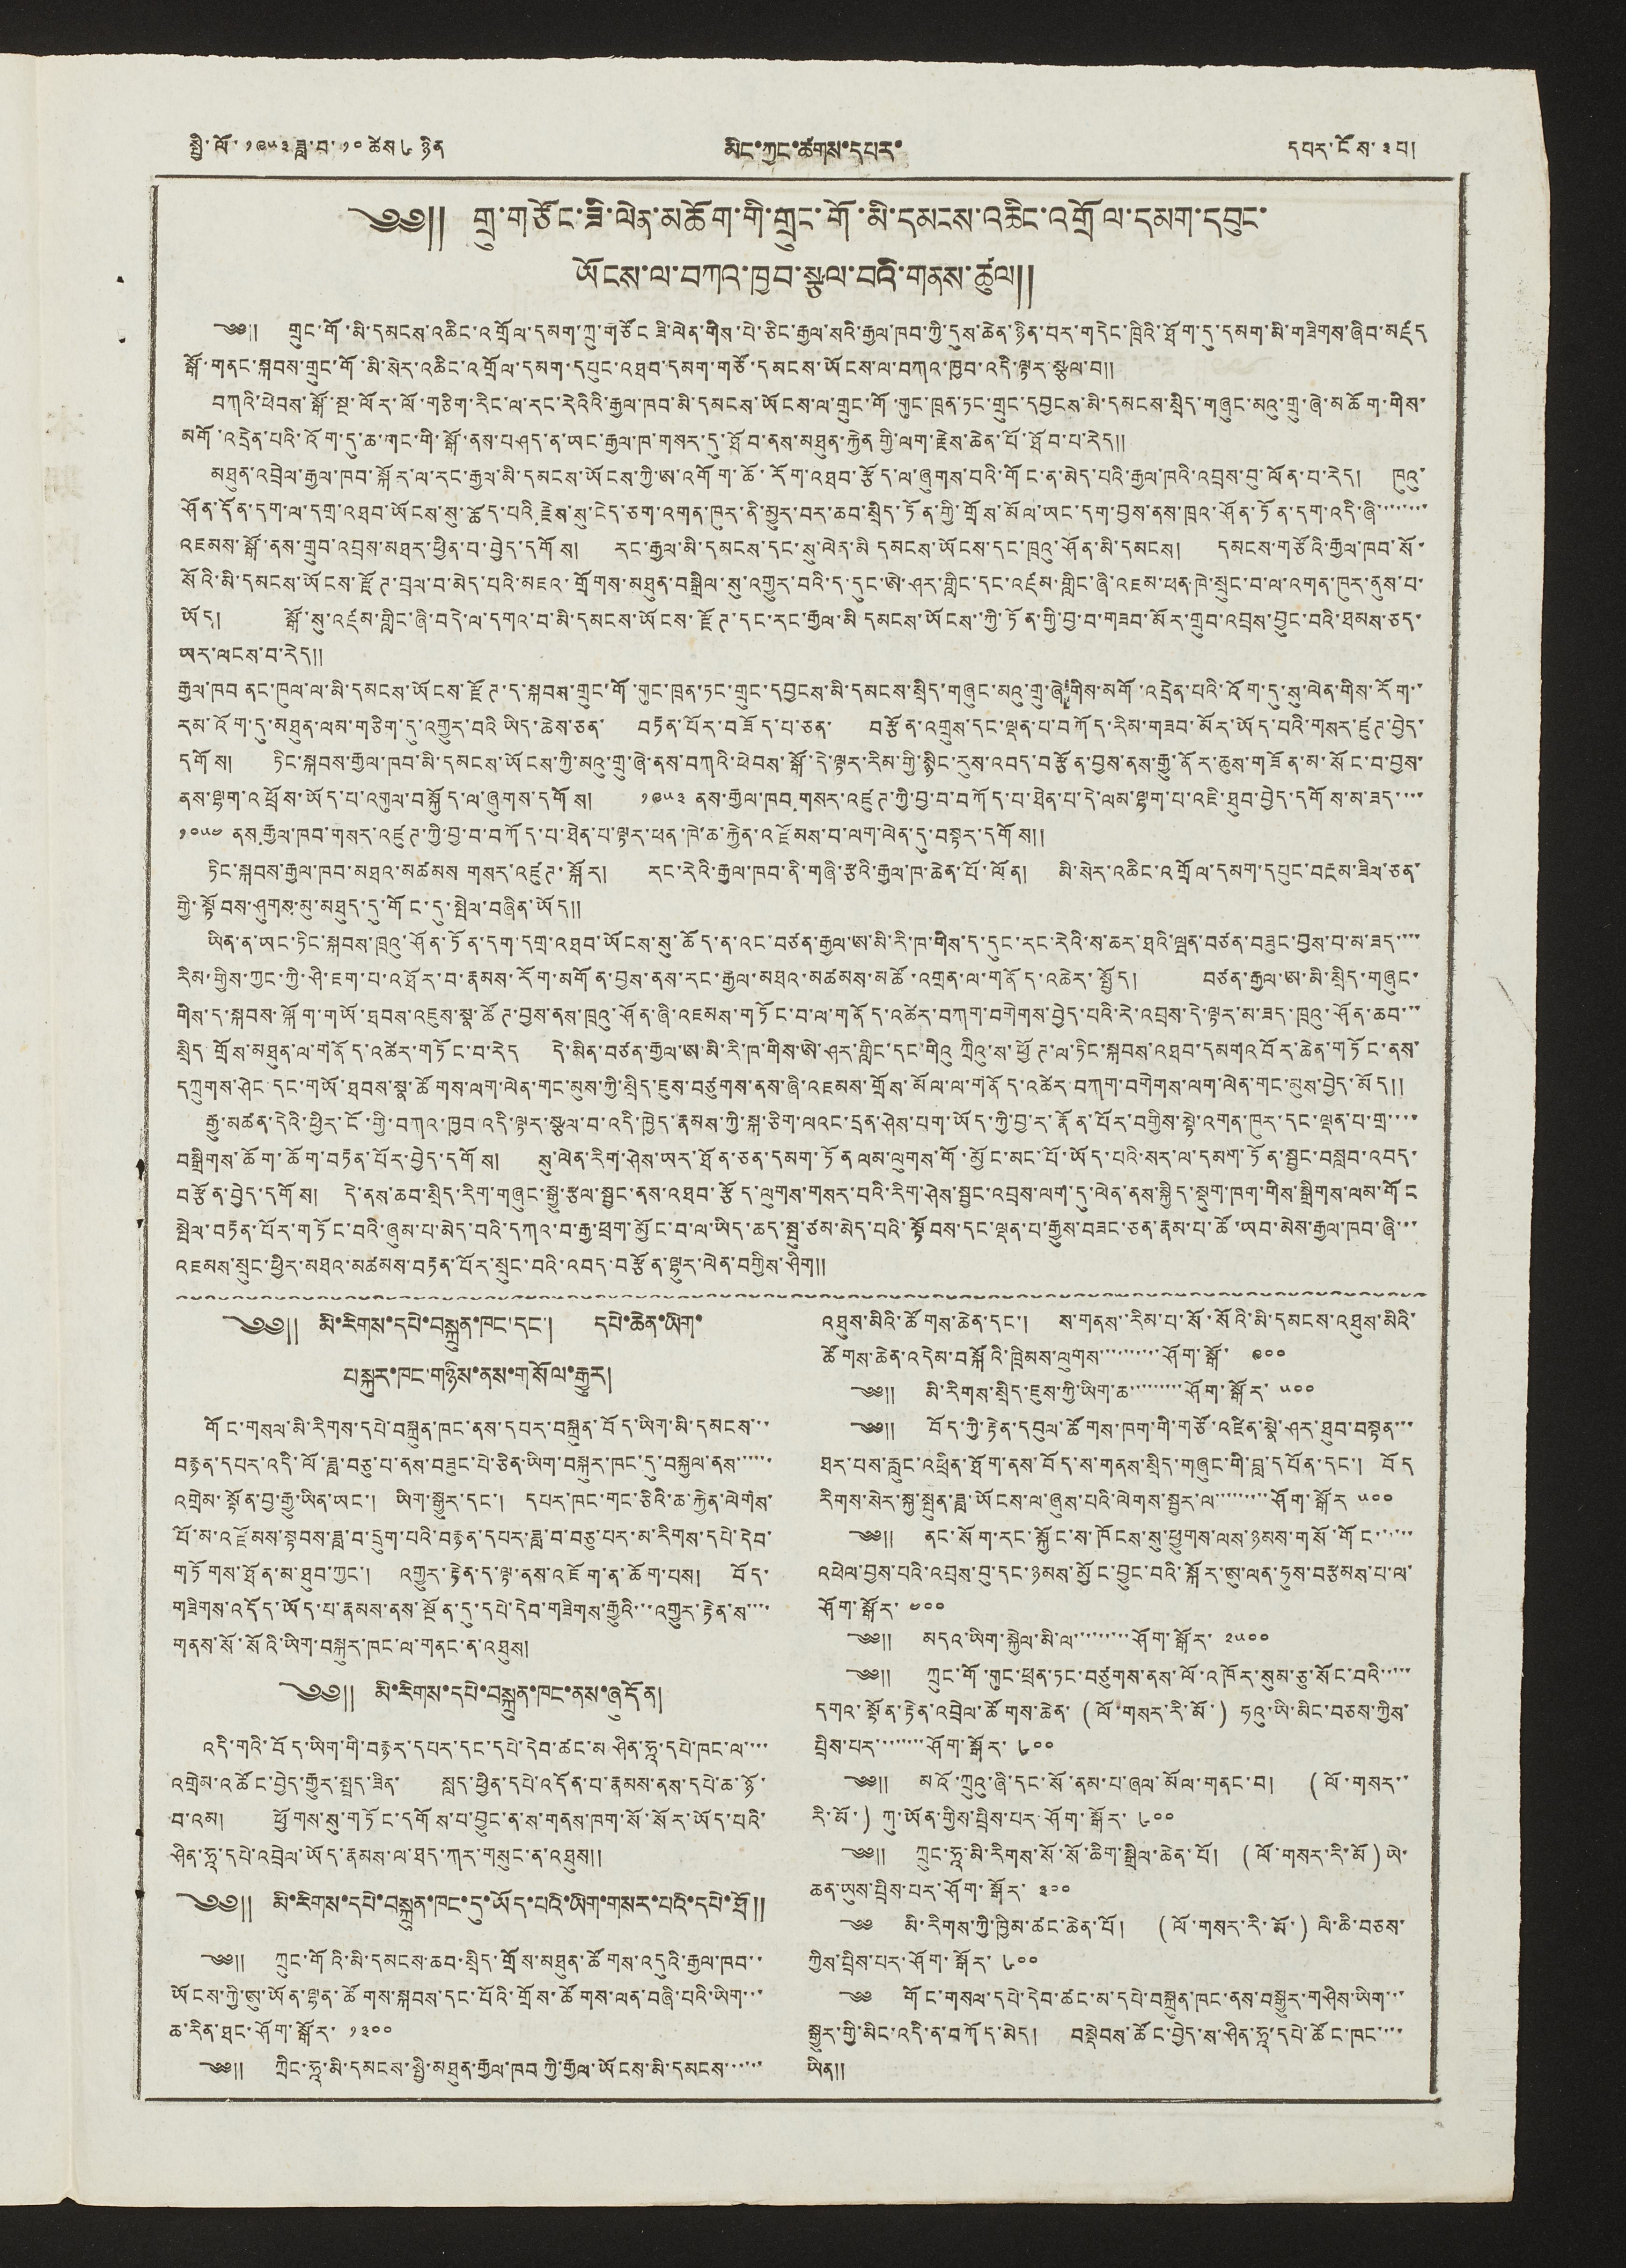སྤྱི་ལོ་ ༡༩༥༣ ཟླ་བ་ ༡༠ ཚེས ༦ ཉིན མིང་ཁྱང་ཚགས་དཔར་ དཔར་ངོས་ ༣ པ།
༄༅༎ གྲུ་གཙོང་ཟི་ལེན་མཆོག་གི་གྲུང་གོ་མི་དམངས་འཆིང་འགྲོལ་དམག་དབུང་
ཡོངས་ལ་བཀའ་ཁྱབ་སྩལ་བའི་གནས་ཚུལ༎
༄༅༎ གྲུང་གོ་མི་དམངས་ཆིང་འགྲོལ་དམག་ཀྲུ་གཙོང ཟི་ལེན་གིས་པེ་ཅིང་རྒྱལ་སའི་རྒྱལ་ཁབ་ཀྱི་དུས་ཆེན་ཉིན་པར་གདེང་ཁྲིའི་ཐོག་དུ་དམག་མི་གཟིགས་ཞིབ་མཛད
སྒོ་གནང་སྐབས་གྲུང་གོ་མི་སེར་འཆིང་འགྲོལ་དམག་དཔུང་འཐབ་དམག་གཙོ་དམངས་ཡོངས་ལ་བཀའ་ཁྱབ་འདི་ལྟར་སྩལ་བ༎
བཀའི་ཕེབས་སྒོ་སྔ་ལོར་ལོ་གཅིག་རིང་ལ་རང་རེའིའི་རྒྱལ་ཁབ་མི་དམངས་ཡོངས་ལ་གྲུང་གོ་གུང་ཁྲན་ཏང་གྲུང་དབྱངས་མི་དམངས་སྲིད་གཞུང་མའུ་གྲུ་ཞེ་མཆོག་གིས་
མགོ་འདྲེན་པའི་འོག་དུ་ཆ་གང་གི་སྒོ་ནས་བཤད་ན་ཡང་རྒྱལ་ཁ་གསར་དུ་ཐོབ་ནས་མཐུན་རྐྱེན གྱི་ལག་རྗེས་ཆེན་པོ་ཐོབ་པ་རེད༎
མཐུན་འབྲེལ་རྒྱལ་ཁབ་སྐོར་ལ་རང་རྒྱལ་མི་དམངས་ཡོངས་ཀྱི་ཨ་འགོག་ཆོ་རོག་འཐབ་རྩོད་ལ་ཞུགས་བའི་གོང་ན་མེད་པའི་རྒྱལ་ཁའི་འབྲས་བུ་ལོན་པ་རེད། ཁུའུ་
ཤོན་དོན་དག་ལ་དགྲ་འཐབ་ཡོངས་སུ་ཆོད་པའི རྗེས་སུ་ངེད་ཅག་འགན་ཁུར་ནི་མྱུར་བར་ཆབ་སྲིད་ཏོན་གྱི་གྲོས་མོལ་ཡང་དག་བྱས་ནས་ཁྲའ་ཤོན་ཏོན་དག་འདི་ཞི་་་་་་་་
འཇམས་སྒོ་ནས་གྲུབ་འབྲས་མཐར་ཕྱིན་པ་བྱེད་དགོས། རང་རྒྱལ་མི་དམངས་དང་སུ་ལེན་མི དམངས་ཡོངས་དང་ཁྲའུ་ཤོན་མི་དམངས། དམངས་གཙོའི་རྒྱལ་ཁབ་སོ་
སོའི་མི་དམངས་ཡོངས་རྫོཊ་བྲལ་བ་མེད་པའི་མཇའ་གྲོགས་མཐུན་བསྒྲིལ་སུ་འགྱུར་བའི་ད་དུང་ཨེ་ཤར་གླིང་དང་འཛམ་གླིང་ཞི་འཇམ་ཕན་ཁེ་སྲུང་བ་ལ་འགན་ཁུར་ནུས་པ་
ཡོད། སྒོ་སུ་འཛམ་གླིང་ཞི་བདེ་ལ་དགའ་བ་མི་དམངས་ཡོངས་རྫོཊ་དང་རང་རྒྱལ་མི དམངས་ཡོངས་་ཀྱི་ཏོན་གྱི་བྱ་བ་གཟབ་མོར་གྲུབ་འབྲས་བྱུང་བའི་ཐམས་ཅད་
ཡར་ལངས་བ་རེད༎
རྒྱལ་ཁབ ནང་ཁུལ་ལ་མི་དམངས་ཡོངས་རྫོཊ་ད་སྐབས་གྲུང་གོ་གུང་ཁྲན་ཏང་གྲུང་དབྱངས་མི་དམངས་སྲིད་གཞུང་མའུ་གྲུ་ཞེ་གིས་མགོ་འདྲེན་པའི་འོག་དུ་སུ་ལེན་གིས་རོག་་
རམ་འོག་དུ་མཐུན་ལམ་གཅིག་དུ་འགྱུར་བའི ཡིད་ཆེས་ཅན་ བརྟན་པོར་བཟོད་པ་ཅན་ བརྩོན་འགྲུས་དང་ལྡན་པ་བཀོད་རིམ་གཟབ་མོར་ཡོད་པའི་གསར་ཛུཊ་བྱེད་
དགོས། ཏིང་སྐབས་རྒྱལ་ཁབ་མི་དམངས་ཡོངས་ཀྱི་མའུ་གྲུ་ཞེ་ནས་བཀའི་ཕེབས་སྒོ་དེ་ལྟར་རིམ་གྱི་སྙིང་རུས་འབད་བརྩོན་བྱས་ནས་རྒྱུ་ནོར་ཆུས་གཟོན་མ་སོང་བ་བྱས་
ནས་ལྷག་འཕྲོས་ཡོད་པ་འགུལ་བསྐྱོད་ལ་ཞུགས་དགོས། ༡༩༥༣ ནས་རྒྱལ་ཁབ་གསར་འཛུཊ་ཀྱི་བྱ་བ་བཀོད་པ་ཐེན་པ་དེ་ལམ་ལྷག་པ་འཇི་ཐུབ་བྱེད་དགོས་མ་ཟད་་་་
༡༩༥༤ ནས རྒྱལ་ཁབ་གསར་འཛུཊ་ཀྱི་བྱ་བ་བཀོད་པ་ཐེན་པ་ལྟར་ཕན་ཁེ་ཆ་རྐྱེན་འཛོམས་བ་ལག་ལེན་དུ་བསྟར་དགོས༎
ཏིང་སྐབས་རྒྱལ་ཁབ་མཐའ་མཚམས གསར་འཛུཊ་སྐོར། རང་རེའི་རྒྱལ་ཁབ་ནི་གཞི་རྩའི་རྒྱལ་ཁ་ཆེན་པོ་ལོན། མི་སེར་འཆིང་འགྲོལ་དམག་དཔུང་བརྔམ་ཟིལ་ཅན་
གྱི་སྟོབས་ཤུགས་མུ་མཐུད་དུ་གོང་དུ་སྤེལ་བཞིན་ཡོད༎
ཡིན་ན་ཡང་ཏིང་སྐབས་ཁྲའུ་ཤོན་ཏོན་དག་དགྲ་འཐབ་ཡོངས་སུ་ཆོད་ན་འང་བཙན་རྒྱལ་ཨ་མི་རི་ཁ་གིས་ད་དུང་རང་རེའི་ས་ཆར་ཐའི་ཝན་བཙན་བཟུང་བྱས་བ་མ་ཟད་་་་
རིམ་གྱིས་ཀྱང་ཀྱི་ཤི་ཇག་པ་འཐོར་བ་རྣམས་རོག་མགོན་བྱས་ནས་རང་རྒྱལ་མཐའ་མཚམས་མཚོ་འགྲན་ལ་གནོད་འཆེར་སྤྱོད། བཙན་རྒྱལ་ཨ་མི་སྲིད་གཞུང་
གིས་ད་སྐབས་ལྐོག་གཡོ་ཐབས་འཇུས་སྣ་ཚོཊ་བྱས་ནས་ཁྲའུ་ཤོན་ཞི་འཇམས་གཏོང་བ་ལ་གནོད་འཚེར་བཀག་བགེགས་བྱེད་པའི་རེ་འབྲས་དེ་ལྟར་མ་ཟད་ཁྲའུ་ཤོན་ཆབ་་་
སྲིད གྲོས་མཐུན་ལ་གནོད་འཚེར་གཏོང་བ་རེད དེ་མིན་བཙན་རྒྱལ་ཨ་མི་རི་ཁ་གིས་ཨེ་ཤར་གླིང་དང་གིའུ ཀྲིའུ་ས་ཕྱོཊ་ལ་ཏིང་སྐབས་འཐབ་དམགའ བོར་ཆེན་གཏོང་ནས་
དཀྲུགས་ཤེང་དང་གཡོ་ཐབས་སྣ་ཚོགས་ལག་ལེན་གང་མུས་ཀྱི་སྲིད་ཇུས་བཙུགས་ནས་ཞི་འཇམས་གྲོས་མོལ་ལ་གནོད་འཚེར་བཀག་བགེགས་ལག་ལེན་གང་མུས་བྱེད་མོད༎
རྒྱུ་མཚན་དེའི་ཕྱི་ངོ་གྱི་བཀའ་ཁྱབ་འདི་ལྟར་སྩལ་བ་འདི་ཁྱེད་རྣམས་ཀྱི་སྐ་ཅིག་ལའང་དྲན་ཤེས་པག་ཡོད་ཀྱི་བྱ་ར་རྣོན་པོར་བགྱིས་སྟེ་འགན་ཁུར་དང་ལྡན་པ་གྲ་་་་
བསྒྲིགས་ཆོག་ཆོག་བརྟན་པོར་བྱེད་དགོས། སུ་ལེན་རིག་ཤེས་ཡར་ཐོན་ཅན་དམག་ཏོན ལམ་ལུགས་གོ་མྱོང་མང་པོ་ཡོད་པའི་སར་ལ་དམག་ཏོན་སྦྱང་བསླབ་འབད་
བརྩོན་བྱེད་དགོས། དེ་ནས་ཆབ་སྲིད་རིག་གཞུང་སྒྱུ་རྩལ་སྦྱང་ནས་འཐབ་རྩོད་ལུགས་གསར་པའི་རིག་ཤེས་སྦྱང་འབྲས་ལག་དུ་ལེན་ནས་སྐྱིད་སྡུག་ཁག་གིས་སྒྲིགས་ལམ་གོང
སྤེལ་བརྟན་པོར་གཏོང་བའི་ཞུམ་པ་མེད་པའི་དཀའ་བ་རྒྱ་ཕྲག་མྱོང་བ་ལ་ཡིད་ཆད་སྤུ་ཙམ་མེད་པའི་སྟོབས་དང་ལྡན་པ་རྒྱུས་བཟང་ཅན་རྣམ་པ་ཚོ་ཡབ་མེས་རྒྱལ་ཁབ་ཞི་་་
འཇམས་སྲུང་ཕྱིར་མཐའ་མཚམས་བརྟན་པོར་སྲུང་བའི་འབད་བརྩོན་ལྷུར་ལེན་བགྱིས་ཤིག༎
༄༅༎ མི་རིགས་དཔེ་བསྐྲུན་ཁང་དང་། དཔེ་ཆེན་ཡིག་
བསྐུར་ཁང་གཉིས་ནས་གསོལ་རྒྱུར།
གོང་གསལ་མི་རིགས་དཔེ་བསྐྲུན་ཁང་ནས་དཔར་བསྐྲུན་བོད་ཡིག་མི་དམངས་་་
བརྙན་དཔར་འདི་ལོ་ཟླ་བཅུ་པ་ནས་བཟུང་པེ་ཅིན་ཡིག་བསྐུར་ཁང་དུ་བསྐྱལ་ནས་་་་་་
འགྲེམ་སྟོན་བྱ་རྒྱུ་ཡིན་ཡང་། ཡིག་སྒྱུར་དང་། དཔར་ཁང་གང་ཅིའི་ཆ་རྐྱེན་ལེགས་
པོ་མ་འཛོམས་སྟབས་ཟླ་བ་དྲུག་པའི་བརྙན་དཔར་ཟླ་བ་བཅུ་པར་མ་རིགས་དཔེ་དེབ་
གཏོགས་ཐོན་མ་ཐུབ་ཀྱང་། འགྱུར་རྟེན་ད་ལྟ་ནས་འཇོག་ན་ཆོག་པས། བོད་
གཟིགས་འདོད་ཡོད་པ་རྣམས་ནས་སྔོན་དུ་དཔེ་དེབ་གཟིགས་རྒྱུའི་་་འགྱུར་རྟེན་ས་་་་
གནས་སོ་སོའི་ཡིག་བསྐུར་ཁང་ལ་གནང་ན་འཐུས།
༄༅༎ མི་རིགས་དཔེ་བསྐྲུན་ཁང་ནས་ཞུདོན།
འདི་གའི་བོད་ཡིག་གི་བརྙར་དཔར་དང་དཔེ་དེབ་ཚང་མ ཤིན་ཧཱ་དཔེ་ཁང་ལ་་་་
འགྲེམ་འཚོང་བྱེད་རྒྱུར་སྤྲད་ཟིན་ སླད་ཕྱིན་དཔེ་འདོན་པ་རྣམས་ནས་དཔེ་ཆ་ཉོ་
བ་འམ། ཕྱོགས་སུ་གཏོང་དགོས་པ་བྱུང་ན་ས་གནས་ཁག་སོ་སོར་ཡོད་པའི་
ཤིན་ཧཱ་དཔེ་འབྲེལ་ཡོད་རྣམས་ལ་ཐད་ཀར་གསུང་ན་འཐུས༎
༄༅༎ མི་རིགས་དཔེ་བསྐྲུན་ཁང་དུ་ཡོད་པའི་ཡིག་གསར་པའི་དཔེ་ཐོ༎
༄༅༎ ཀྲུང་གོའི་མི་དམངས་ཆབ་སྲིད་གྲོས་མཐུན་ཚོགས་འདུའི་རྒྱལ་ཁབ་་
ཡོངས་ཀྱི་ཨུ་ཡོན་ལྷན་ཚོགས་སྐབས་དང་པོའི་གྲོས་ཚོགས་ལན་བཞི་པའི་ཡིག་་་
ཆ་རིན་ཐང་ཤོག་སྒོར་ ༡༣༠༠
༄༅༎ ཀྲིང་ཧཱ་མི་དམངས་སྤྱི་མཐུན་རྒྱལ་ཁབ ཀྱི་རྒྱལ་ཡོངས་མི་དམངས་་་་་་
འཐུས་མིའི་ཚོགས་ཆེན་དང་། ས་གནས་་རིམ་པ་སོ་སོའི་མི་དམངས་འཐུས་མིའི་
ཚོགས་ཆེན་འདེམ་བསྐོའི་ཁྲིམས་ལུགས་་་་་་་་་་ཤོག་སྒོ་ ༩༠༠
༄༅༎ མི་རིགས་སྲིད་ཇུས་ཀྱི་ཡིག་ཆ་་་་་་་་་ཤོག་སྒོར་ ༥༠༠
༄༅༎ བོད་ཀྱི་རྟེན་དབུལ་ཚོགས་ཁག་གི་གཙོ་འཛིན་སྣེ་ཤར་ཐུབ་བསྟན་་་
ཐར་པས་རླུང་འཕྲིན་ཐོག་ནས་བོད་ས་གནས་སྲིད་གཞུང་གི་བླ་དཔོན་དང་། བོད
རིགས་སེར་སྐུ་སྤུན་ཟླ་ཡོངས་ལ་ཞུས་པའི་ལེགས་སྦྱར་ལ་་་་་་་་་ཤོག་སྒོར ༥༠༠
༄༅༎ ནང་སོག་རང་སྐྱོང་ས་ཁོངས་སུ་ཕྱུགས་ལས་ཉམས་གསོ་གོང་་་་་་
འཕེལ་བྱས་པའི་འབྲས་བུ་དང་ཉམས་མྱོང་བྱུང་བའི་སྐོར་ཨུ་ལན་ཧུས་བརྩམས་པ་ལ་
ཤོག་སྒོར་ ༤༠༠
༄༅༎ མདའ་ཡིག་སྐྱེལ་མི་ལ་་་་་་་་་ཤོག་སྒོར་ ༢༥༠༠
༄༅༎ ཀྲུང་གོ་གུང་ཕྲན་ཏང་བཙུགས་ནས་ལོ་འཁོར་སུམ་ཅུ་སོང་བའི་་་་་
དགའ་སྟོན་རྟེན་འབྲེལ་ཚོགས་ཆེན་ (ལོ་གསར་རི་མོ་) ཧའུ་ཡི་མིང་བཅས་ཀྱིས་
པྲིས་པར་་་་་་་་ཤོག་སྒོར་ ༦༠༠
༄༅༎ མའོ་ཀྲུའུ་ཞི་དང་སོ་ནམ་པ་ཞལ་མོལ་གནང་བ། (ལོ་གསར་་
རི་མོ་) ཀུ་ཡོན་གྱིས་བྲིས་པར་ཤོག་སྒོར་ ༦༠༠
༄༅༎ ཀྲུང་ཧཱ་མི་རིགས་སོ་སོ་ཆིག་སྒྲིལ་ཆེན་པོ། (ལོ་གསར་རི་མོ) ཡེ་
ཆན་ཡུས་བྲིས་པར་ཤོག་སྒོར་ ༣༠༠
༄༅༎ མི་རིགས་ཀྱི་ཁྱིམ་ཚང་ཆེན་པོ། (ལོ་གསར་རི་མོ་) ལི་ཆི་བཅས་
ཀྱིས་བྲིས་པར་ཤོག་སྒོར་ ༦༠༠
༄༅༎ གོང་གསལ་དཔེ་དེབ་ཚང་མ་དཔེ་བསྐྲུན་ཁང་ནས་བསྒྱུར་གཤིས་ཡིག་་་
སྒྱུར་གྱི་མིང་འདི་ན་བཀོད་མེད། བསྡེབས་ཚོང་བྱེད་ས་ཤིན་ཧཱ་དཔེ་ཚོང་ཁང་་་་
ཡིན༎
